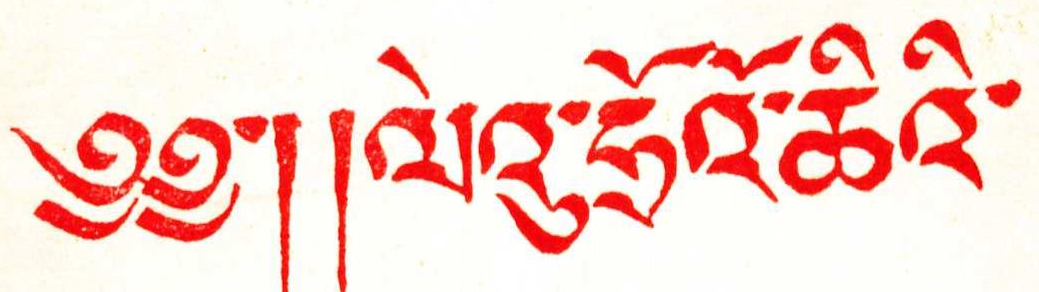༄༅་།།ལེའུ་ཧྲོའོ་ཆིའི་
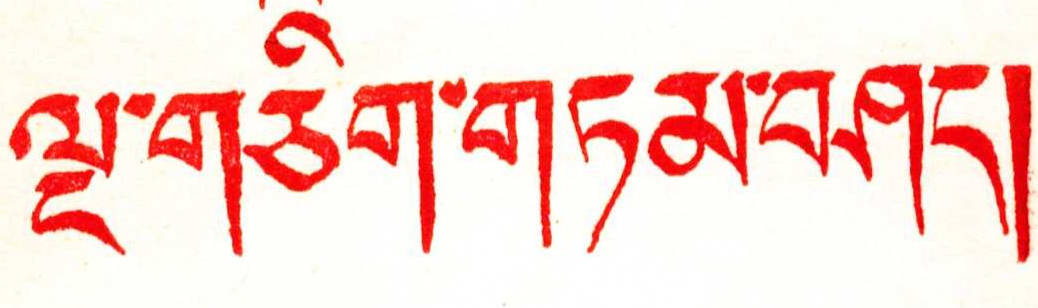ལྔ་གཅིག་གཏམ་བཤད།
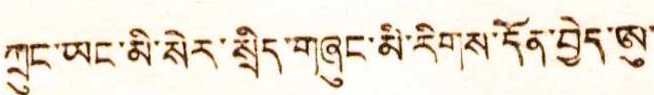ཀྲུང་ཡང་མི་སེར་སྲིད་གཞུང་མི་རིགས་དོན་བྱེད་ཨུ་
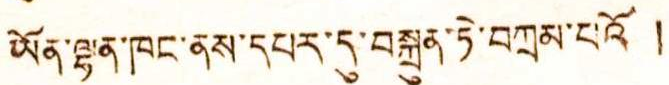ཡོན་ལྷན་ཁང་ནས་དཔར་དུ་བསྐྲུན་ཏེ་བཀྲམ་པའོ །
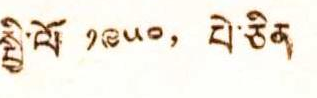སྤྱི་ལོ ༡༩༥༠, པེ་ཅིན
